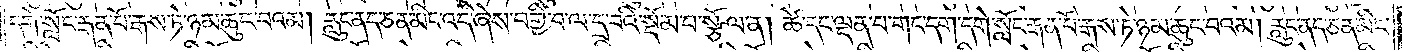དགེ་སློང་རྒན་པོ་རྒས་ཏེ་ཉམ་ཆུང་བའམ། རླུང་ནད་ཅན་མིང་འདི་ཞེས་བགྱི་བ་ལ་དྲ་བའི་སྡོམ་པ་སྩོལ་ན། ཚེ་དང་ལྡན་པ་གང་དག་དགེ་སློང་རྒན་པོ་རྒས་ཏེ་ཉམ་ཆུང་བའམ། རླུང་ནད་ཅན་མིང་
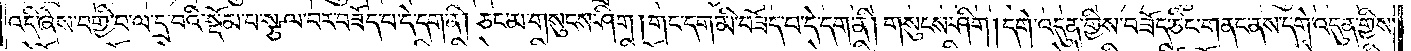འདི་ཞེས་བགྱི་བ་ལ་དྲ་བའི་སྡོམ་པ་སྩལ་བར་བཟོད་པ་དེ་དག་ནི། ཅང་མ་གསུངས་ཤིག །གང་དག་མི་བཟོད་པ་དེ་དག་ནི། གསུངས་ཤིག །དགེ་འདུན་གྱིས་བཟོད་ཅིང་གནང་ནས་དགེ་འདུན་གྱིས་
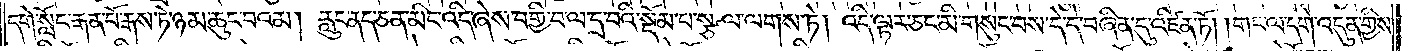དགེ་སློང་རྒན་པོ་རྒས་ཏེ་ཉམ་ཆུང་བའམ། རླུང་ནད་ཅན་མིང་འདི་ཞེས་བགྱི་བ་ལ་དྲ་བའི་སྡོམ་པ་སྩལ་ལགས་ཏེ། འདི་ལྟར་ཅང་མི་གསུང་བས་དེ་དེ་བཞིན་དུ་འཛིན་ཏོ། །གང་ལ་དགེ་འདུན་གྱིས་
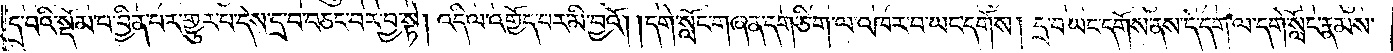དྲ་བའི་སྡོམ་པ་བྱིན་པར་གྱུར་བ་དེས་དྲ་བ་བཅང་བར་བྱ་སྟེ། འདི་ལ་འགྱོད་པར་མི་བྱའོ། །དགེ་སློང་གཞན་དག་ཅིག་ལ་འཁར་བ་ཡང་དགོས། དྲ་བ་ཡང་དགོས་ནས་དེ་དག་ལ་དགེ་སློང་རྣམས་
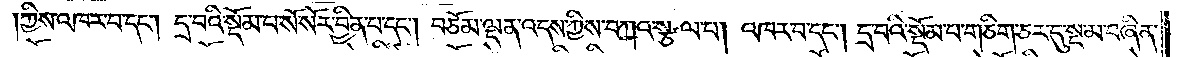ཀྱིས་འཁར་བ་དང༌། དྲ་བའི་སྡོམ་པ་སོ་སོར་བྱིན་པ་དང༌། བཅོམ་ལྡན་འདས་ཀྱིས་དཀའ་སྩལ་པ། འཁར་བ་དང༌། དྲ་བའི་སྡོམ་པ་གཅིག་ཅར་དུ་སྔ་མ་བཞིན་
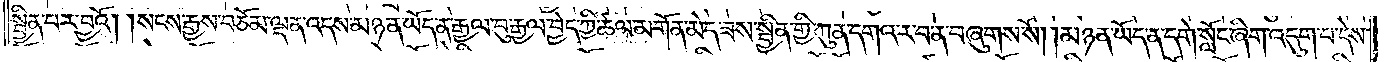སྦྱིན་པར་བྱའོ། །སངས་རྒྱས་བཅོམ་ལྡན་འདས་མཉན་ཡོད་ན་རྒྱལ་བུ་རྒྱལ་བྱེད་ཀྱི་ཚལ་མགོན་མེད་ཟས་སྦྱིན་གྱི་ཀུན་དགའ་ར་པ་ན་བཞུགས་སོ། །མཉན་ཡོད་ན་དགེ་སློང་ཞིག་འདུག་པ་དེས་
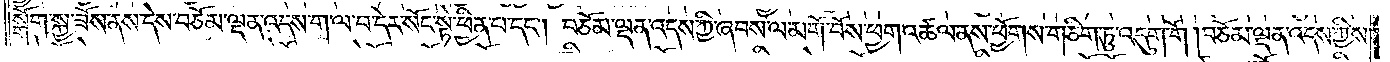སྒོག་སྐྱ་ཟོས་ནས་དེས་བཅོམ་ལྡན་འདས་ག་ལ་བ་དེར་སོང་སྟེ་ཕྱིན་པ་དང༌། བཅོམ་ལྡན་འདས་ཀྱི་ཞབས་ལ་མགོ་བོས་ཕྱག་འཚལ་ནས་ཕྱོགས་གཅིག་ཏུ་འདུག་གོ །བཅོམ་ལྡན་འདས་ཀྱིས་
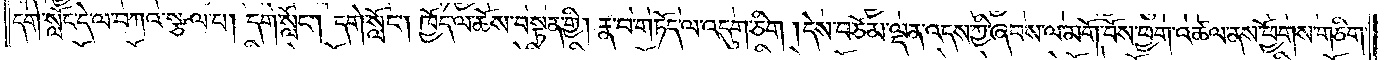དགེ་སློང་དེ་ལ་བཀའ་སྩལ་པ། དགེ་སློང༌། དགེ་སློང༌། ཁྱོད་ལ་ཆོས་བསྟན་གྱི། རྣ་བ་གཏོད་ལ་འདུག་ཅིག །དེས་བཅོམ་ལྡན་འདས་ཀྱི་ཞབས་ལ་མགོ་བོས་ཕྱག་འཚལ་ནས་ཕྱོགས་གཅིག་
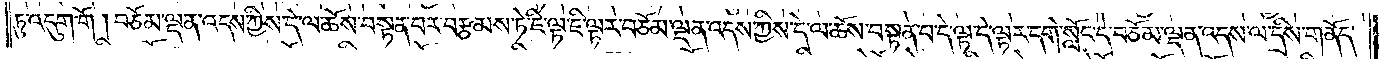ཏུ་འདུག་གོ །བཅོམ་ལྡན་འདས་ཀྱིས་དེ་ལ་ཆོས་བསྟན་པར་བརྩམས་ཏེ་ཇི་ལྟ་ཇི་ལྟར་བཅོམ་ལྡན་འདས་ཀྱིས་དེ་ལ་ཆོས་བསྟན་པ་དེ་ལྟ་དེ་ལྟར་དགེ་སློང་དེ་བཅོམ་ལྡན་འདས་ལ་དྲིས་གནོད་
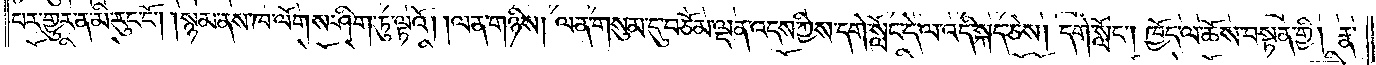པར་གྱུར་ན་མི་རུང་ངོ༌། །སྙམ་ནས་ཁ་ལོགས་ཤིག་ཏུ་ལྟའོ། །ལན་གཉིས། ལན་གསུམ་དུ་བཅོམ་ལྡན་འདས་ཀྱིས་དགེ་སློང་དེ་ལ་འདི་སྐད་ཅེས། དགེ་སློང༌། ཁྱོད་ལ་ཆོས་བསྟན་གྱི། རྣ་
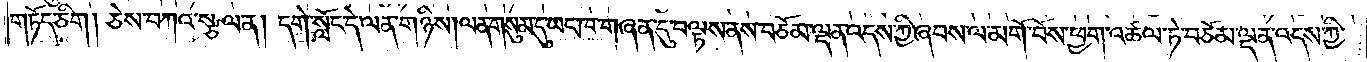གཏོད་ཅིག །ཅེས་བཀའ་སྩལ་ན། དགེ་སློང་དེ་ལན་གཉིས། ལན་གསུམ་དུ་ཡང་ཁ་གཞན་དུ་བལྟས་ནས་བཅོམ་ལྡན་འདས་ཀྱི་ཞབས་ལ་མགོ་བོས་ཕྱག་འཚལ་ཏེ་བཅོམ་ལྡན་འདས་ཀྱི་
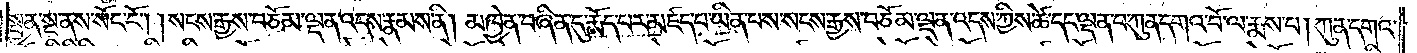སྤྱན་སྔ་ནས་སོང་ངོ༌། །སངས་རྒྱས་བཅོམ་ལྡན་འདས་རྣམས་ནི། མཁྱེན་བཞིན་དུ་རྨོད་པར་མཛད་པ་ཡིན་པས་སངས་རྒྱས་བཅོམ་ལྡན་འདས་ཀྱིས་ཚེ་དང་ལྡན་པ་ཀུན་དགའ་བོ་ལ་རྨས་པ། ཀུན་དགའ་
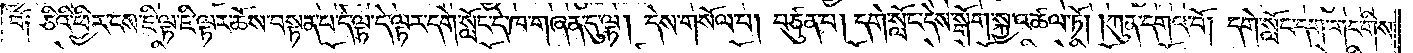བོ། ཅིའི་ཕྱིར་ངས་ཇི་ལྟ་ཇི་ལྟར་ཆོས་བསྟན་པ་དེ་ལྟ་དེ་ལྟར་དགེ་སློང་དེ་ཁ་གཞན་དུ་ལྟ། དེས་གསོལ་པ། བཙུན་པ། དགེ་སློང་དེས་སྒོག་སྐྱ་འཚལ་ཏོ། །ཀུན་དགའ་བོ། དགེ་སློང་དག་གང་གིས་
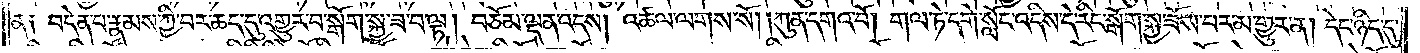ན༑ བདེན་པ་རྣམས་ཀྱི་བར་ཆད་དུ་འགྱུར་བ་སྒོག་སྐྱ་ཟ་བ་ལྟ། བཅོམ་ལྡན་འདས། འཚལ་ལགས་སོ། །ཀུན་དགའ་བོ། གལ་ཏེ་དགེ་སློང་འདིས་དེ་རིང་སྒོག་སྐྱ་ཟོས་བར་མ་གྱུར་ན། དེང་ཉིད་དུ་
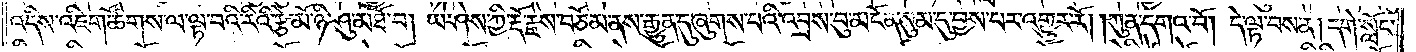འདིས་འཇིག་ཚོགས་ལ་ལྟ་བའི་རིའི་རྩེ་མོ་ཉི་ཤུ་མཐོ་བ། ཡེ་ཤེས་ཀྱི་རྡོ་རྗེས་བཅོམ་ལྡན་ནས་རྒྱུན་དུ་ཞུགས་པའི་འབྲས་བུ་མངོན་སུམ་དུ་བྱས་པར་འགྱུར་རོ། །ཀུན་དགའ་བོ། དེ་ལྟ་བས་ན། དགེ་སློང་
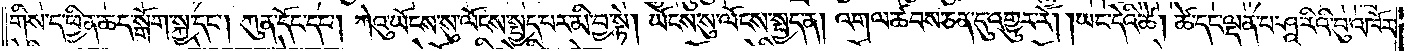གིས་ད་ཕྱིན་ཆད་སྒོག་སྐྱ་དང༌། ཀུན་དོང་དང༌། ཀེའུ་ཡོངས་སུ་ལོངས་སྤྱད་པར་མི་བྱ་སྟེ། ཡོངས་སུ་ལོངས་སྤྱད་ན། འགལ་ཚབས་ཅན་དུ་འགྱུར་རོ། །ཡང་དེའི་ཚེ། ཚེ་དང་ལྡན་པ་ཤཱ་རིའི་བུ་འཁོར་
